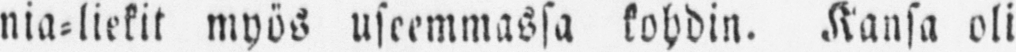nia-liekit myös useemmassa kohdin. Kansa oli
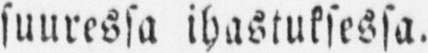suuressa ihastuksessa.
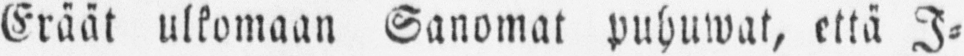Eräät ulkomaan Sanomat puhuwat, että I-
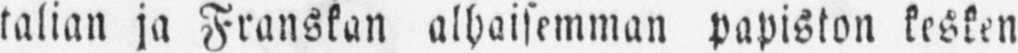talian ja Franskan alhaisemman papiston kesken
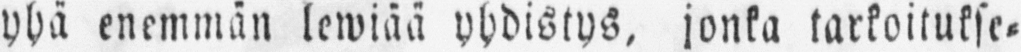yhä enemmän lewiää yhdistys, jonka tarkoitukse-
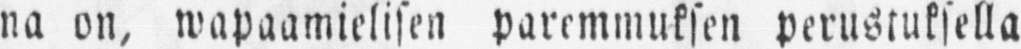na on, wapaamielisen paremmuksen perustuksella
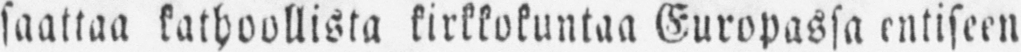saattaa kathoollista kirkkokuntaa Europassa entiseen
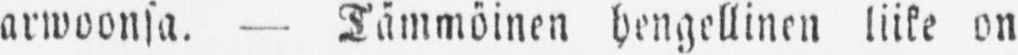arwoonsa. — Tämmöinen hengellinen liike on
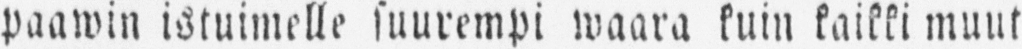paawin istuimelle suurempi waara kuin kaikki muut
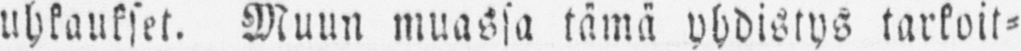uhkaukset. Muun muassa tämä yhdistys tarkoit-
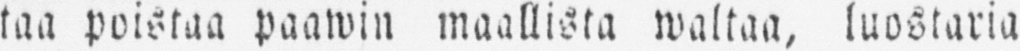taa poistaa paawin maallista waltaa, luostaria
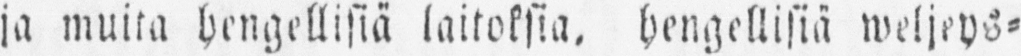ja muita hengellisiä laitoksia, hengellisiä weljeys-
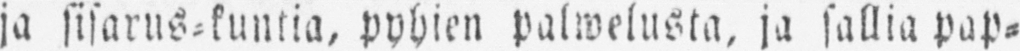ja sisarus-kuntia, pyhien palwelusta, ja sallia pap-
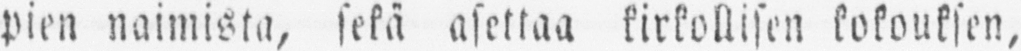pien naimista, sekä asettaa kirkollisen kokouksen,
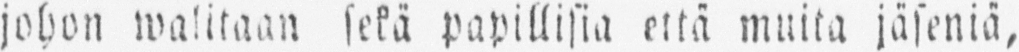johon walitaan sekä papillisia että muita jäseniä,
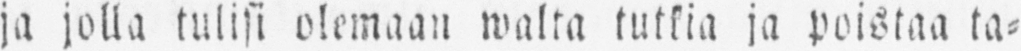ja jolla tulisi olemaan walta tutkia ja poistaa ta-
